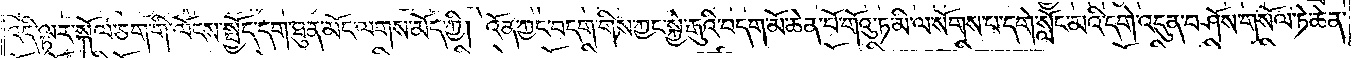འདི་ལྟར་སྐོལ་ཅག་གི་ལོངས་སྤྱོད་དག་ཐུན་མོང་ལགས་མོད་ཀྱི། འོན་ཀྱང་བདག་གིས་ཀྱང་སྐྱེ་རྒུའི་བདག་མོ་ཆེན་པོ་གོའུ་ཏ་མི་ལ་སོགས་པ་དགེ་སློང་མའི་དགེ་འདུན་བཤོས་གསོལ་ཏེ་ཆེན་
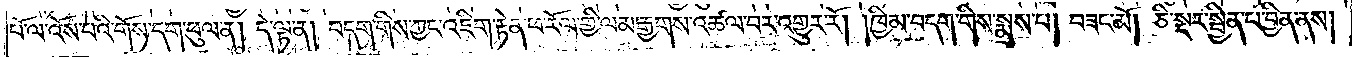པོ་ལ་འོས་པའི་གོས་དག་ཕུལ་ན། དེ་ལྟ་ན། བདག་གིས་ཀྱང་འཇིག་རྟེན་ཕ་རོལ་གྱི་ལམ་རྒྱགས་འཚལ་བར་འགྱུར་རོ། །ཁྱིམ་བདག་གིས་སྨྲས་པ། བཟང་མོ། ཅི་སྔར་སྦྱིན་པ་བྱིན་ནས།
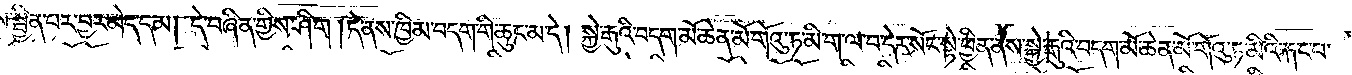སྦྱིན་པར་བྱར་མེད་དམ། དེ་བཞིན་གྱིས་ཤིག །དེ་ནས་ཁྱིམ་བདག་གི་ཆུང་མ་དེ། སྐྱེ་རྒུའི་བདག་མོ་ཆེན་མོ་གོའུ་ཏ་མི་ག་ལ་བ་དེར་སོང་སྟེ་ཕྱིན་ནས་སྐྱེ་རྒུའི་བདག་མོ་ཆེན་མོ་གོའུ་ཏ་མིའི་རྐང་པ་
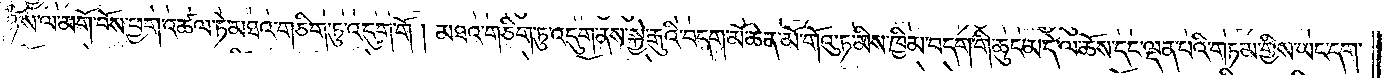གཉིས་ལ་མགོ་བོས་ཕྱག་འཚལ་ཏེ་མཐའ་གཅིག་ཏུ་འདུག་གོ །མཐའ་གཅིག་ཏུ་འདུག་ནས་སྐྱེ་རྒུའི་བདག་མོ་ཆེན་མོ་གོའུ་ཏ་མིས་ཁྱིམ་བདག་གི་ཆུང་མ་དེ་ལ་ཆོས་དང་ལྡན་པའི་གཏམ་གྱིས་ཡང་དག་
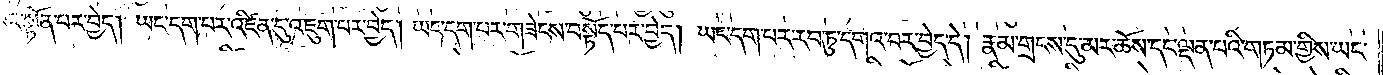པར་སྟོན་པར་བྱེད། ཡང་དག་པར་འཛིན་དུ་འཇུག་པར་བྱེད། ཡང་དག་པར་གཟེངས་བསྟོད་པར་བྱེད། ཡང་དག་པར་རབ་ཏུ་དགའ་བར་བྱེད་དེ། རྣམ་གྲངས་དུ་མར་ཆོས་དང་ལྡན་པའི་གཏམ་གྱིས་ཡང་
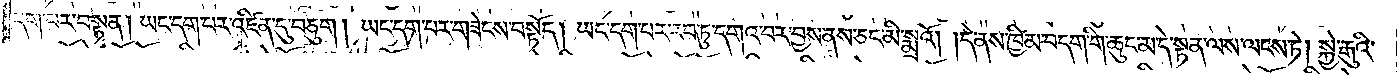དག་པར་བསྟན། ཡང་དག་པར་འཛིན་དུ་བཅུག །ཡང་དག་པར་གཟེངས་བསྟོད། ཡང་དག་པར་རབ་ཏུ་དགའ་བར་བྱས་ནས་ཅང་མི་སྨྲའོ། །དེ་ནས་ཁྱིམ་བདག་གི་ཆུང་མ་དེ་སྟན་ལས་ལངས་ཏེ། སྐྱེ་རྒུའི་
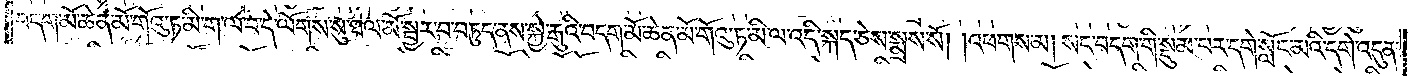བདག་མོ་ཆེན་མོ་གོའུ་ཏ་མི་ག་ལ་བ་དེ་ལོགས་སུ་ཐལ་མོ་སྦྱར་བ་བཏུད་ནས་སྐྱེ་རྒུའི་བདག་མོ་ཆེན་མོ་གོའུ་ཏ་མི་ལ་འདི་སྐད་ཅེས་སྨྲས་སོ། །འཕགས་མ། སང་བདག་གི་སྡུམ་པར་དགེ་སློང་མའི་དགེ་འདུན་
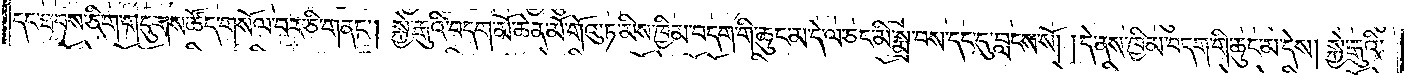དང་ཐབས་ཅིག་གདུགས་ཚོད་གསོལ་བར་ཅི་གནང༌། སྐྱེ་རྒུའི་བདག་མོ་ཆེན་མོ་གོའུ་ཏ་མིས་ཁྱིམ་བདག་གི་ཆུང་མ་དེ་ལ་ཅང་མི་སྨྲ་བས་དང་དུ་བླངས་སོ། །དེ་ནས་ཁྱིམ་བདག་གི་ཆུང་མ་དེས། སྐྱེ་རྒུའི་
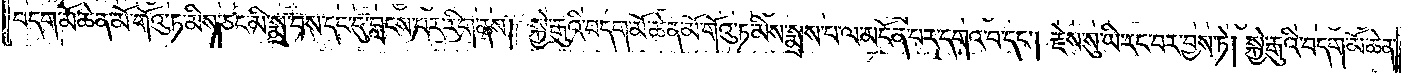བདག་མོ་ཆེན་མོ་གོའུ་ཏ་མིས་ཅང་མི་སྨྲ་བས་དང་དུ་བླངས་པར་རིག་ནས། སྐྱེ་རྒུའི་བདག་མོ་ཆེན་མོ་གོའུ་ཏ་མིས་སྨྲས་པ་ལ་མངོན་པར་དགའ་བ་དང༌། རྗེས་སུ་ཡི་རང་བར་བྱས་ཏེ། སྐྱེ་རྒུའི་བདག་མོ་ཆེན་
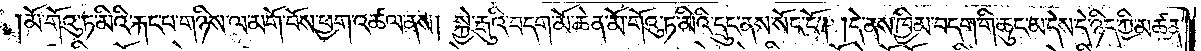མོ་གོའུ་ཏ་མིའི་རྐང་པ་གཉིས་ལ་མགོ་བོས་ཕྱག་འཚལ་ནས། སྐྱེ་རྒུའི་བདག་མོ་ཆེན་མོ་གོའུ་ཏ་མིའི་དྲུང་ནས་སོང་ངོ༌། །དེ་ནས་ཁྱིམ་བདག་གི་ཆུང་མ་དེས་དེ་ཉིད་ཀྱི་མཚན་
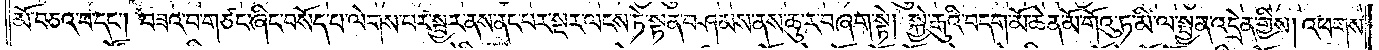མོ་བཅའ་བ་དང༌། བཟའ་བ་གཙང་ཞིང་བསོད་པ་ལེགས་པར་སྦྱར་ནས་ནང་པར་སྔར་ལངས་ཏེ་སྟན་བཤམས་ནས་ཆུ་ར་བཞག་སྟེ། སྐྱེ་རྒྱུའི་བདག་མོ་ཆེན་མོ་གོའུ་ཏ་མི་ལ་སྤྱན་འདྲེན་གྱིས། འཕགས་
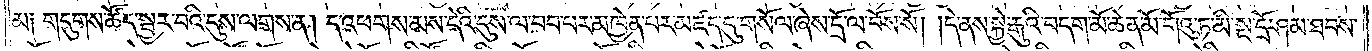མ༑ གདུགས་ཚོད་སྦྱར་བའི་དུས་ལགས་ན། ད་འཕགས་མས་དེའི་དུས་ལ་བབ་པར་མཁྱེན་པར་མཛད་དུ་གསོལ་ཞེས་དྲོ་ལ་བོས་སོ། །དེ་ནས་སྐྱེ་རྒུའི་བདག་མོ་ཆེན་མོ་གོའུ་ཏ་མི་སྔ་དྲོ་ཤམ་ཐབས་
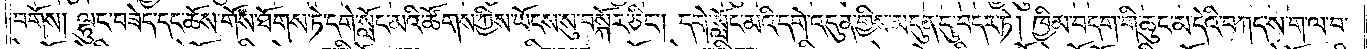བགོས། ལྷུང་བཟེད་དང་ཆོས་གོས་ཐོགས་ཏེ་དགེ་སློང་མའི་ཚོགས་ཀྱིས་ཡོངས་སུ་བསྐོར་ཅིང༌། དགེ་སློང་མའི་དགེ་འདུན་གྱིས་མདུན་དུ་བདར་ཏེ། ཁྱིམ་བདག་གི་ཆུང་མ་དེའི་བཀད་ས་ག་ལ་བ་
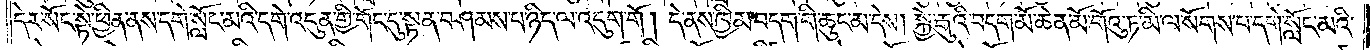དེར་སོང་སྟེ་ཕྱིན་ནས་དགེ་སློང་མའི་དགེ་འདུན་གྱི་གོང་དུ་སྟན་བཤམས་པ་ཉིད་ལ་འདུག་གོ། དེ་ནས་ཁྱིམ་བདག་གི་ཆུང་མ་དེས། སྐྱེ་རྒུའི་བདག་མོ་ཆེན་མོ་གོའུ་ཏ་མི་ལ་སོགས་པ་དགེ་སློང་མའི་
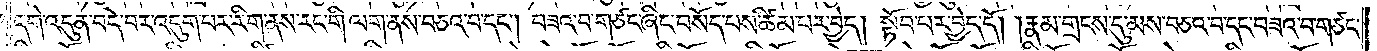དགེ་འདུན་བདེ་བར་འདུག་པར་རིག་ནས་རང་གི་ལག་ནས་བཅའ་བ་དང༌། བཟའ་བ་གཙང་ཞིང་བསོད་པས་ཚིམ་པར་བྱེད། སྟོབ་པར་བྱེད་དོ། །རྣམ་གྲངས་དུ་མས་བཅའ་བ་དང་བཟའ་བ་གཙང་
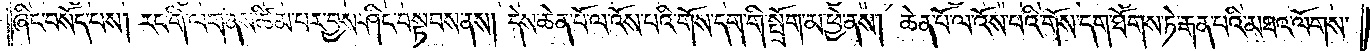ཞིང་བསོད་པས། རང་གི་ལག་ནས་ཚིམ་པར་བྱས་ཤིང་བསྟབས་ནས། དེས་ཆེན་པོ་ལ་འོས་པའི་གོས་དག་གི་སྤྲོག་མ་ཕྱེ་ནས། ཆེན་པོ་ལ་འོས་པའི་གོས་དག་ཐོགས་ཏེ་རྒན་པའི་མཐའ་ལོགས་
